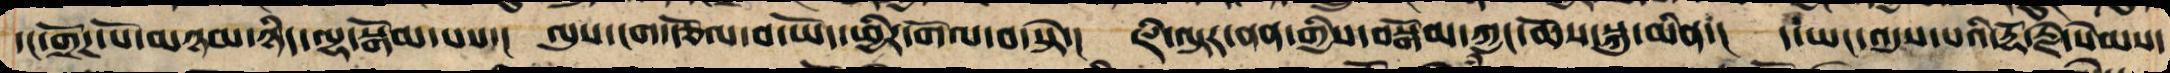དང་གྲོཌ་པོ་མཉམ་ཉིད་ལྷ་སྒོམ་པས་།   ལུས་ངག་རྩོལ་བ་ཡོད་ཕྱིར་གོལ་བ་སྟེ་།   ཇི་ལྟར་ནན་གྱིས་བསྒོམ་ཀྱང་ཆོས་སྐུ་མིན་།   ད་ཡང་འདུས་པའི་རྡོ་རྗེ་སེམས་
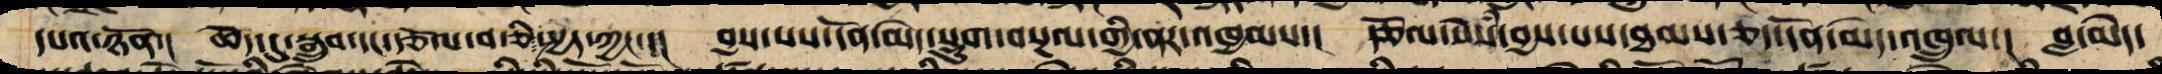དཔའ་ཉོན་།   ཆེད་དུ་སྒྲུབ་དང་རྩོལ་བ་ཅི་སྤྱད་ཀྱང་་།   བྱས་པས་དོན་མེད་སྡུག་བསྔལ་གྱི་ནར་འཁྱམས་།   རྩོལ་སེཾས་བྱས་པས་ཐམས་ཅད་དོན་མེད་འཁྲུལ་།   བླ་མེད་
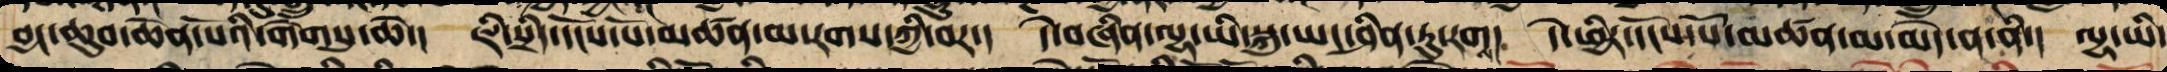བྱང་ཆུབ་ཆེན་པོའི་གེགསུ་ཆེ་།    ཇི་སྲིད་དངོས་པོ་མཚན་མ་རགས་ཀྱི་བར་།   དེ་བཞིན་ལྷ་ཡི་སྐུ་ཡང་ཤིན་ཏུ་རག།   དེ་ཕྱིར་དངོས་པོ་མཚན་མ་མེད་ན་ནི་།   ལྷ་ཡི་
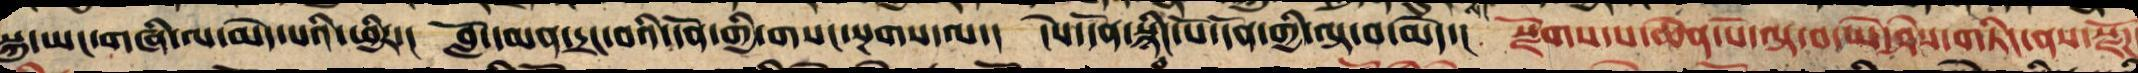སྐུ་ཡང་གཞི་ལ་མེད་པའི་ཕྱིར་།   བློ་དམན་དྲང་བའི་དོན་གྱི་གསང་སྔགས་ལ་།   ངེས་དོན་སྙིང་པོ་དོན་གྱི་ལྟ་བ་མེད་།   སྫོགས་པ་ཆེན་པོ་ལྟ་བ་ཡེ་ཤེས་གཏིང་ནས་སྫོཌ་
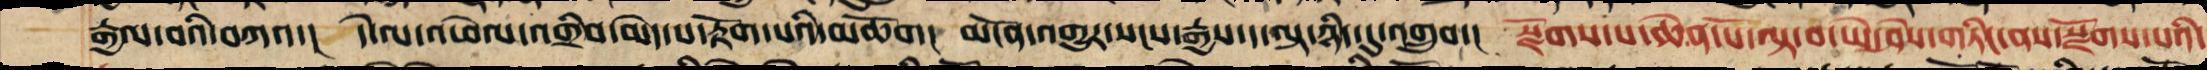རྒྱལ་བའི་བཀའ་།   དེ་ལ་འཕེལ་འགྲིབ་མེད་པ་རྟོག་པའི་མཆོག།    མངོན་འགྱུར་སངས་རྒྱས་ད་ལྟ་ཉིད་དུ་འགྲུབ་།   སྫོགས་པ་ཆེན་པོ་ལྟ་བ་ཡེ་ཤེས་གཏིང་ནས་སྫོགས་པའི་
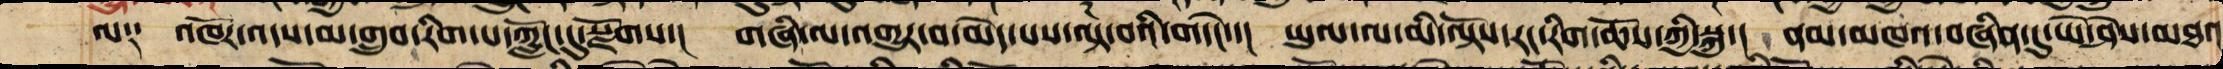ལ༑   འཁོར་འདས་མ་གྲུབ་རིག་པའི་ཀློང་དུ་སྫོགས་།   གཞི་ལ་འགྱུར་བ་མེད་པས་ལྟ་བའི་གདེང་་།   ཡུལ་ལ་མི་ལྟོས་རང་རིག་ཆོས་ཀྱི་སྐུ་།   ནམ་མཁའ་བཞིན་དུ་ཡེ་ཤེས་མཐའ
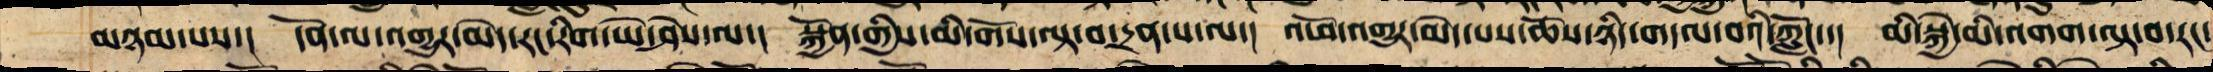མཉམ་པས་།   དོན་ལ་འགྱུར་མེད་རང་རིག་ཡེ་ཤེས་ལ།   སྐྱོན་གྱིས་མི་གོས་ལྟ་བ་དྲན་པ་ལ་།   འཕོ་འགྱུར་མེད་པས་ཆོས་ཉིད་གདལ་བའི་ཀློང་་།   མི་སྐྱེ་མི་འགག་ལྟ་བ་རང་
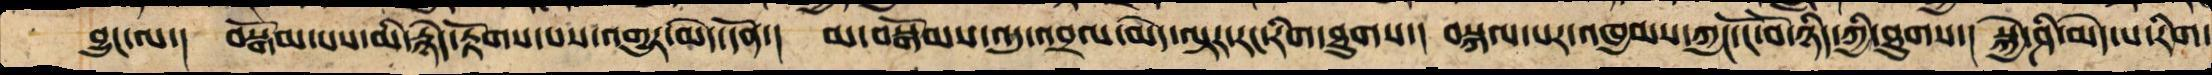བྱུང་ལ་།   བསྒོམ་པས་མི་རྙེད་རྟོགས་པས་འགྱུར་མེད་དོན་།   མ་བསྒོམས་འདུ་འབྲལ་མེད་ལྟར་རང་རིག་ཐུགས་།   བསྐལ་པར་འཁྱམས་ཀྱང་ངོ་བོ་ཉིད་ཀྱི་ཐུགས་།   སྐྱེ་ཤི་མེད་པ་རིག་
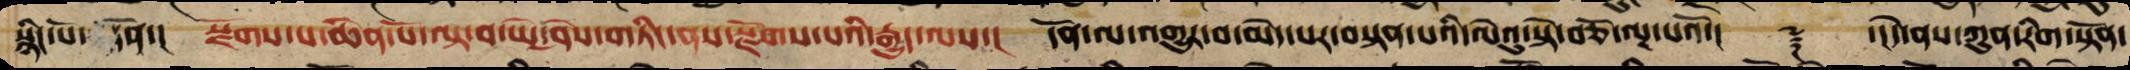སྙིང་པོ་དོན། རྫོགས་པ་ཆེན་པོ་ལྟ་བ་ཡེ་ཤེས་གཏིང་ནས་རྫོགས་པའི་རྒྱུད་ལས། དོན་ལ་འགྱུར་བ་མེད་པར་བསྟན་པའི་ལེའུ་སྟེ་བཅོ་ལྔ་པའོ།། ༈ ་།དེ་ནས་ཀུན་རིག་སྟོན་
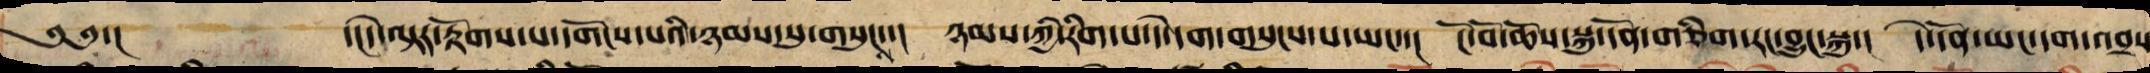༄༅་།            ་།དེ་ལྟར་རྟོགས་པ་དགོངས་པའི་ཉམས་སུ་གསུང་་།   ཉམས་ཀྱི་རིམ་པ་དེ་དག་གསུངས་པ་ཡང་་།   ངོ་བོ་ཆོས་སྐུ་དོན་གཅིག་རང་བྱུང་སྐུ་།   དེ་དོན་ཡང་དག་འབྲས
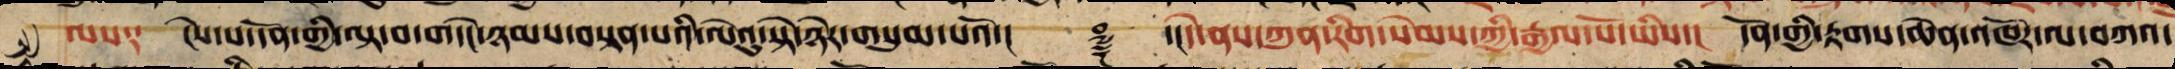ལས༑ ངེས་པ་དོན་གྱི་ལྟ་བའི་གདེང་ཉམས་བསྟན་པའི་ལེའུ་སྟེ་ཉེར་གསུམ་པའོ།། ༈ཾ ་།།དེ་ནས་ཀུན་རིག་སེམས་ཀྱི་རྒྱལ་པོ་ཡིས། དོན་གྱི་རྟགས་ཆེན་འཁོར་ལ་བཀའ་
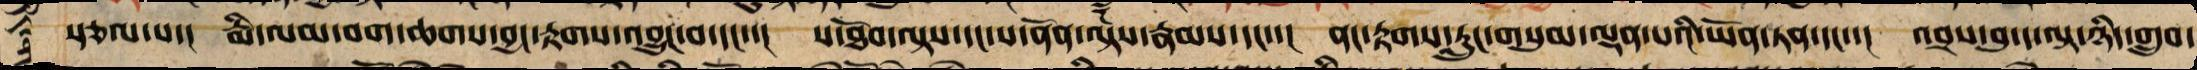སྩལ་པ་། །རྨི་ལམ་བག་ཆགས་བྱང་རྟགས་འབྱུང་བ་དང་་། ས་ཐོབ་ལྟས་དང་ས་ནོན་ལྟས་རྣམས་དང་་། ནང་རྟགས་རླུང་གསུམ་ལྡན་པའི་ཡོན་ཏན་དང་་། འབྲས་བུ་ད་ལྟ་ཉིད་གྲུབ་
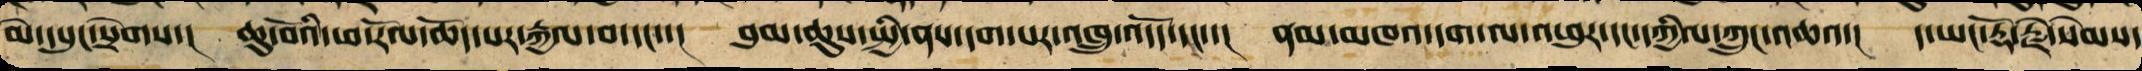མེ་དཔུང་སྲེགས།   ཆུ་བོའི་ཕ་རོལ་ཆོད་པར་རྐྱལ་བ་དང་་།   བུམ་ཆུས་སྤྱི་ནས་དག་པར་འཁྲུ་འདོད་དང་་།   ནམ་མཁའ་དག་ལ་འཕུར་དང་དཀྱིལ་ཀྲུང་འཆའ་།   ད་ཡང་རྡོ་རྗེ་སེམས་
